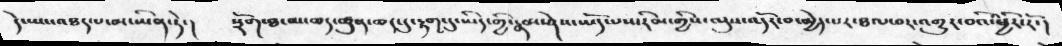དེ་ཡང་འཐད་པ་མ་ཡིན་ཏེ་།    སྲོག་ཐ་མ་ཆད་ཚུན་ཆད་དུ་རྟག་དུ་ཡིད་གྱི་རྣམ་ཤེས་ཡོད་པས་རིམ་གྱིས་ལུས་འདོར་བ་མྱེད་པར་ཐལ་བར་འགྱུར་བའི་ཕྱིར་རོ་།
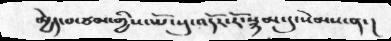མྱེད་པ་ཙམ་གྱིས་ཡོངསུ་འདོར་རོ་སྙམ་དུ་སེམས་ན་།
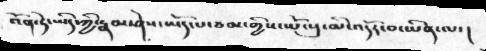འོན་ཏེ་ཡིད་ཀྱི་རྣམ་ཤེས་ཡོད་པ་ཙམ་གྱིས་ཡོངསུ་མི་འདོར་བ་ཡིན་ལ་།
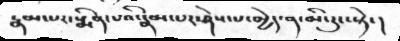རྣམ་པར་སྨིན་པའི་རྣམ་པར་ཤེས་པ་མྱེད་ན་མི་རུང་སྟེ་།
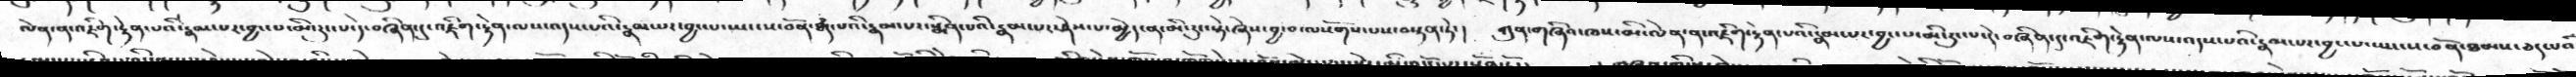ལེན་ན་འཇིག་རྟེན་པའི་རྣམ་པར་བྱང་པ་མི་རུང་པ་དེ་བཞིན་དུ་འཇིག་རྟེན་ལས་འདས་པའི་རྣམ་པར་བྱང་པ་ཡང་ས་བོན་ཐཾད་པའི་རྣམ་པར་སྨིན་པའི་རྣམ་པར་ཤེས་པ་མྱེད་ན་མི་རུང་སྟེ་ཞེས་བྱ་བ་ལསོགས་པས་བསྟན་ཏེ་ །   ཀུན་གཞིའ་ཁས་མི་ལེན་ན་འཇིག་རྟེན་པའི་རྣམ་པར་བྱང་པ་མི་རུང་པ་དེ་བཞིན་དུ་འཇིག་རྟེན་ལས་འདས་པའི་རྣམ་པར་བྱང་པ་ཡང་ས་བོན་ཐམས་ཅད་པའ
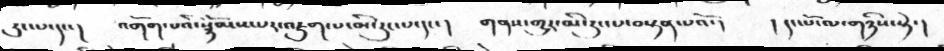རུང་པ་དང་ །     འགོག་པའི་སྙོམས་པར་འཇུག་པ་མི་རུང་པ་དང་ །    གནས་གྱུར་མི་རུང་པ་བསྟན་པའོ་ །      ། དང་པོ་ལ་གཉིས་སྟེ་།
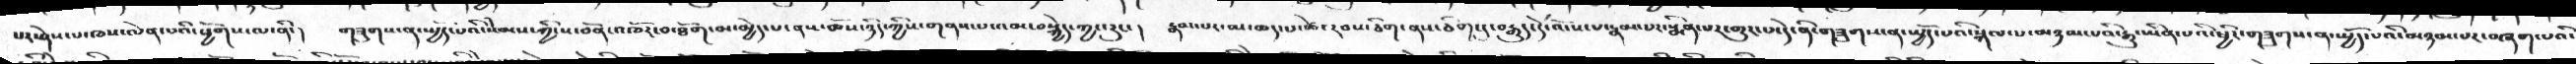པར་ཤེས་པ་ཁས་ལེན་པའི་ཕྱོགས་ལ་ནི་།   གཟུགས་ན་ཡྱོད་པའི་སེམས་ཀྱི་ས་བོན་འཁོར་བ་ཐོག་མ་མྱེད་པ་ནས་ཆོས་ཉིད་ཀྱིས་གནས་པ་འམ་བསྐྱེད་ཀྱང་རུང་།   རྣམ་པར་མ་ཆད་པ་ཚེ་རབས་ཅིག་ནས་ཅིག་དུ་བརྒྱུད་དེ་མོས་པ་རྣམ་པར་སྨིན་པར་གྱུར་པ་དེ་ནི་གཟུགས་ན་ཡྱོད་པའི་སྐལ་པ་མཉམ་པའི་རྒྱུ་ཡིན་པའི་ཕྱིར་གཟུགས་ན་ཡྱོད་པའི་མཉམ་པར་བཞག་པའི་
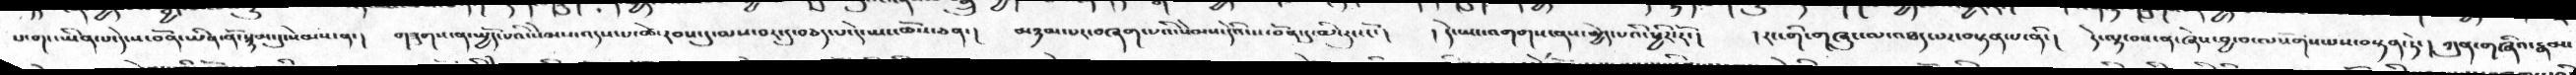པ་གང་ཡིན་པ་དེ་ས་བོན་ཡིན་ནོ་སྙམ་དུ་སེམས་ན་།   གཟུགས་ན་སྤྱོད་པའི་སེམས་འདས་པ་ཚེ་རབས་དུ་མས་བར་དུ་བཅད་པ་དེ་ཡང་ཆོས་ཅན་།   མཉམ་པར་བཞག་པའི་སེམས་དེའི་ས་བོན་དུ་མི་རུང་ངོ་།   ། དེ་ཡང་འགགས་ནས་མྱེད་པའི་ཕྱིར་རོ་།   ། རང་གི་གཞུང་ལ་འཐད་པར་བསྟན་པ་ནི་།  དེ་ལྟ་བས་ན་ཞེས་བྱ་བ་ལསོགས་པས་བསྟན་ཏེ་།   ཀུན་གཞིའ་རྣམ་
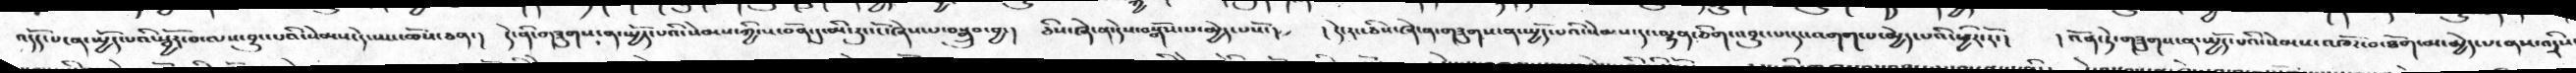འདོད་པ་ན་སྤྱོད་པའི་སྦྱོར་བ་ལས་བྱུང་པའི་སེམས་དེ་ཡང་ཆོས་ཅན་།  དེ་ནི་གཟུགས་ན་སྤྱོད་པའི་སེམས་ཀྱི་ས་བོན་དུ་མི་རུང་ངོ་ཞེས་པ་བསྒྲུབ་བྱ་།  ཅིས་ཞེ་ན་དེས་བསྒོས་པ་མྱེད་པསོ་།    ། དེ་རང་ཅིས་ཞེ་ན་གཟུགས་ན་སྤྱོད་པའི་སེམས་དང་ལྷན་ཅིག་འབྱུང་པ་དང་འགག་པ་མྱེད་པའི་ཕྱིར་རོ་།    ། འོན་ཏེ་གཟུགས་ན་སྤྱོད་པའི་སེམས་འཁོར་བ་ཐོག་མ་མྱེད་པ་ནས་འདྲིས
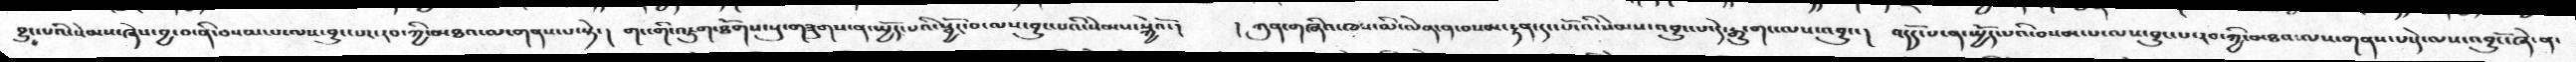བྱུང་པའི་སེམས་ཞེས་བྱ་བ་ནི་བསམ་པ་ལས་བྱུང་པར་རབ་ཀྱི་མཐའ་ལ་གནས་པ་སྟེ་།    གང་གི་འཇུག་ཐོགས་སུ་གཟུགས་ན་སྤྱོད་པའི་སྦྱོར་བ་ལས་བྱུང་པའི་སེམས་སྐྱེའོ་།   ། ཀུན་གཞིའ་ཁས་མི་ལེན་ན་བསམ་རྟན་དང་པོ་འི་སེམས་འབྱུང་པ་དེ་རྒྱུ་གང་ལས་འབྱུང་།   འདོད་པ་ན་སྤྱོད་པའི་བསམ་པ་ལས་བྱུང་པ་རབ་ཀྱི་མཐའ་ལས་གནས་པ་དེ་ལས་འབྱུངོ་ཞེ་ན་
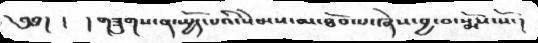༄༅།  །  །གཟུགས་ན་སྤྱོད་པའི་སེམས་མ་ཐོབ་པ་ཞེས་བྱ་བ་སྨོས་སོ་།
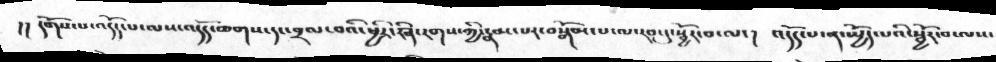།། དགོས་པ་འདོད་པ་ལས་འདོད་ཆགས་དང་བྲལ་བའི་ཕྱིར་ཞི་རགས་ཀྱི་རྣམ་པར་བསྒོམ་པ་ལ་རབ་དུ་སྦྱོར་བ་ལ་།   འདོད་པ་ན་སྤྱོད་པའི་སྦྱོར་བ་ལས་
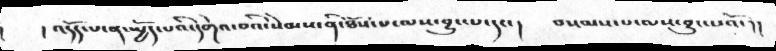།      ། འདོད་པ་ན་སྤྱོད་པའི་དགེའ་བའི་སེམས་ནི་ཐོས་པ་ལས་བྱུང་པ་དང་།    བསམ་པ་ལས་བྱུང་པའོ་།།
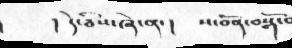། དེ་ཅིས་ཞེ་ན་།    ས་བོན་བསྒོ་བ
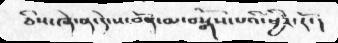ཅིས་ཞེ་ན་དེ་ས་བོན་མ་བསྒོས་པའི་ཕྱིར་རོ་།
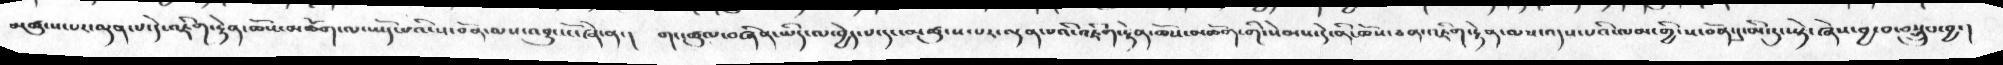མཚུངས་པར་ལྡན་པ་དེ་འཇིག་རྟེན་ཆོས་མཆོག་ལ་ཡོད་པའི་ས་བོན་ལས་འབྱུང་ངོ་ཞེ་ན་།  གང་ཚུལ་བཞིན་ཡིད་ལ་བྱེད་པ་དང་མཚུངས་པར་ལྡན་པའི་འཇིག་རྟེན་ཆོས་མཆོག་གི་སེམས་དེ་ནི་ཆོས་ཅན་འཇིག་རྟེན་ལས་འདས་པའི་ལམ་གྱི་ས་བོན་དུ་མི་རུང་སྟེ་ཞེས་བྱ་བ་བསྒྲུབ་བྱ་།
